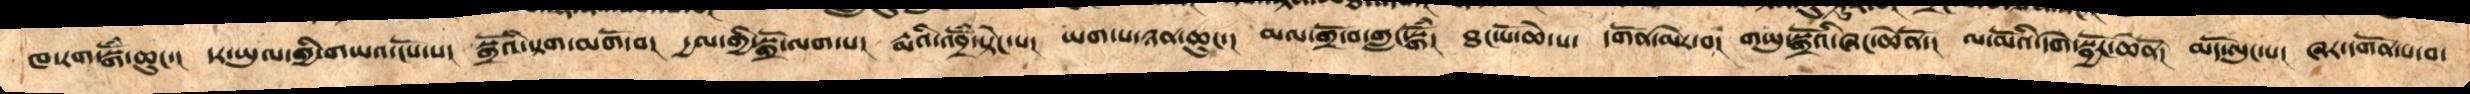ཁ་རག་སྒོཾ་ཆུང་།  དར་ཡུལ་གྱི་གཡའ་ངོས་པ།  སྒྲོའི་སྟག་མགོ་བ།  དྱལ་གྱི་སྒྲོ་ལག་པ།  རྨའི་འབྲོཾ་སྟེང་པ།  ཡག་པ་ཉན་ཆུང་།  མལ་གྲོ་བ་གླང་སྒོཾ། ཐང་པོ་ཆེ་པ་  དགོན་མེར་བ་  གཡུ་སྒྲོའི་ཞང་ཆེེནོ་།  ལ་མོའི་དགེ་སྦྱོང་ཆེནོ།  མདོ་ལུང་པ།  ཞར་དགོན་པ་བ་
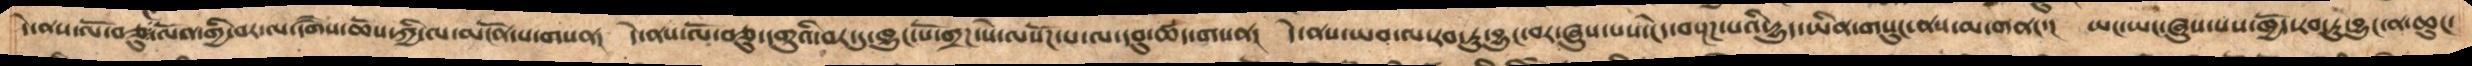དེ་ནས་ལོ་བཅུ་ལོན་གྱི་བར་ལ་དགཻས་ཆོས་ཀྱི་ལ་མངོན་པ་གསན།   དེ་ནས་ལོ་བཅུ་དགུའི་བར་དུ་ཁྱུང་པོ་གྲཌ་སེ་ལསོཌ་པ་ལ་དབུ་ཚད་གསན།  དེ་ནས་ཡབ་ལ་རབ་ཏུ་བྱུང་བར་ཞུས་པས་ངེད་བསྔཌ་པའི་དྱུད་ཡིན་གསུང་ནས་མ་གནང་།   ཡང་ཡང་ཞུས་པས་ཁྱོད་རབ་ཏུ་བྱུང་ན་ཆུང་
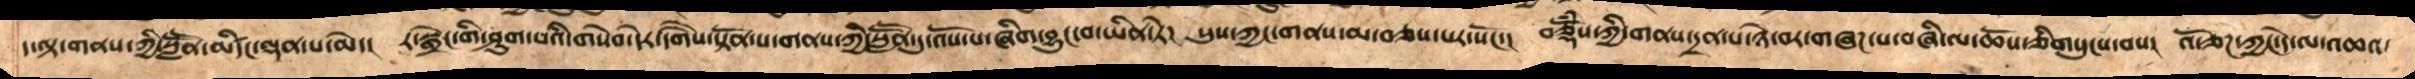ད་ལྟ་གནས་ཀྱི་སླཽན་མིཛདང་ལྡན་པ་མེད།  ར་སྒྲེང་གི་ཤུག་པའི་གསེབ་དེར་དགཻས་སྟོན་པ་གནས་ཀྱི་སླཽན་དུ་འོས་པ་ཞིག་བྱུང་བ་ཡིན་ཏེ།   སུས་ཀྱང་གནས་མ་བཅས་པར་སོང་།  བཅྡོཾས་ཀྱི་གནས་དྲན་པ་ཉེ་བར་གཞཌ་པ་བཞི་ལ་ཆོས་ཅིགསུངས་བས།  འོ་ཅཌ་ཀྱང་དེ་ལ་འཆའ་
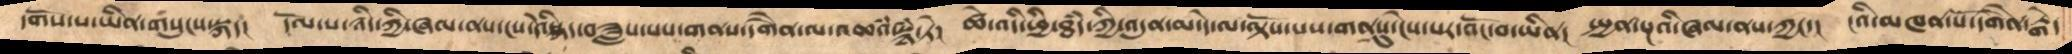དགོས་པ་ཡིན་གསུངས་སྐད།  དོལ་པ་ཉིད་ཀྱི་ཞལ་ནས་ངས་དེ་སྐིད་བཟླས་པས་གནས་དགཻན་ལ་འཆའཾ་སྙཾ་ཏེ།  ཚེ་འདི་ཕྱི་ཐཾད་ཀྱི་འདུན་མ་དེ་ལ་ལྟོས་པས་གནསུ་ངེས་པར་འོང་བ་ཡིན།  སྤྱན་སྔའི་ཞལ་ནས་ཀྱང་།  ངའི་མཁན་པོ་དགཻན་རྒེད
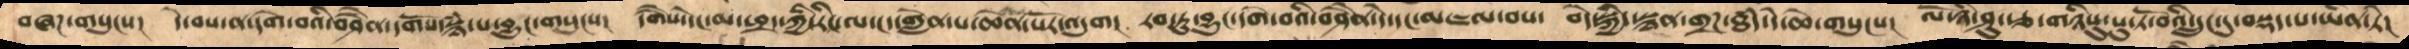བཞཌ་གསུངས།   དེ་བས་ན་དགེ་བའི་བཤཻན་དགོས་སྙཾ་པ་བྱུང་གསུངས།   དགཻས་དེང་མ་ཕྲད་ཀྱི་རིང་ལ་ངད་གླེན་པ་ཆེན་པོར་འདུག།   རབ་ཏུ་བྱུང་དགེ་བའི་བཤཻན་དེ་དང་མཇལ་བས།  བདེ་སྐྱིད་སྙན་གྲཌ་ཐཾད་དེ་ཆེ་གསུངས།  ལོ་ཉི་ཤུ་རྩ་གཉིསུ་པུ་ཏོ་བའི་དྲུང་དུ་བསྡད་པ་ཡིན་ཏེ།
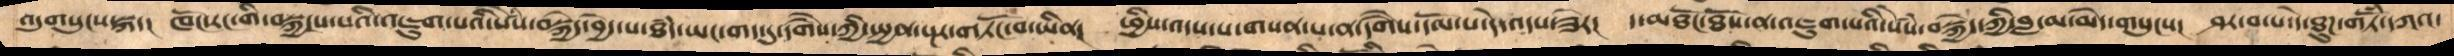འདུགསུངས་སྐད།    ཁོང་རང་གི་བསྐྱངས་པའི་འཇུག་པའི་སེཾས་བསྐྱེད་བྱེད་པ་ཐཾད་ཡང་གད་དུ་དགཻས་ཀྱི་སྤྱན་སྔར་གཏོང་བ་ཡིན།  ཕྱིས་འདས་པ་གསན་པ་ན་དགཻས་དོལ་པ་དེ་འདས་ཟེར།   ད་མཐོང་ཐོས་ན་འཇུག་པའི་སེཾས་བསྐྱེད་ཀྱི་བླ་མ་མེད་གསུངས།   ཤར་བ་པ་དེ་ཐུཌ་གཏོཾ་དཀའ་
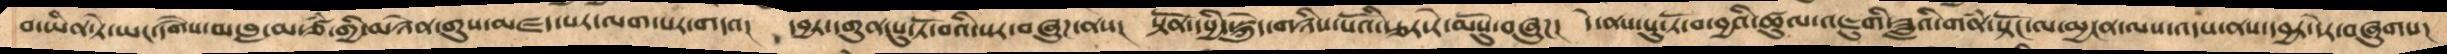བ་ཡིན་ཏེ་ཡང་དགཻས་མ་བླ་མ་ཙཾ་གྱི་མཉེན་གུས་མཛད་པར་ལག་པར་གདའ།   དབྱར་དགུན་པུ་ཏོ་བའི་པར་བཞུཌ་ནས།  སྟོན་དཔྱིད་སྐེུད་གཉིས་པོའི་རྩར་རེ་མོསུ་བཞུཌ།  དེ་ནས་པུ་ཏོ་བ་བྱའི་ཚུལ་འཇུགི་ཟླའི་གནཾ་སྟོང་ལ་མྱངན་ལས་འདས་ནས་དབྱར་དེར་བཞུགས།
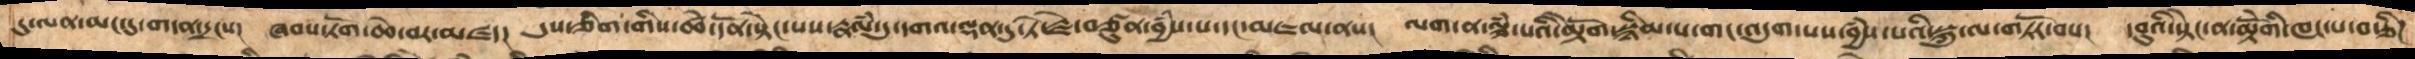དུ་ལན་མང་དུ་གདན་དྲངས།  ཞབས་ཏོག་ཆེ་བར་མཛད།  དུས་གཅིག་གིས་ཚེ་དོན་སྟེང་པས་རྣལཾ་དུ་དགའ་ལྡན་དུ་ཏེ་རྗེ་བཙུན་བྱཾས་པ་དང་མཇལནས།  ལག་ན་ལྕཾ་པའི་མྟེོག་སྙིམ་པ་གང་འདུག་པས་བྱཾས་པའི་སྐུ་ལ་གཏོར་བས།  དབུའི་སྟེང་ན་མྟེོགི་ཁང་པ་བརྩིཌ
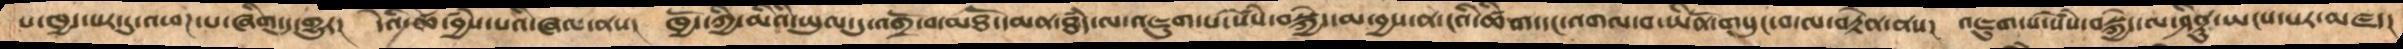པ་ཁྱད་པར་དུ་འཕཌ་པ་ཞིག་ཏུ་གྱུར།  དེའི་ཚེ་བྱཾས་པའི་ཞལ་ནས།  ཁྱོད་ཀྱིས་མིའི་ཡུལ་དུ་འགྲོ་བ་མཐོ་དམན་ཐཾད་ལ་འཇུག་པའི་སེཾས་བསྐྱེད་མ་བྱས་ན་ངའི་ཚིག་དང་འགལ་བ་ཡིནོ་གསུང་བ་ལ་བརྟེན་ནས།  འཇུག་པ་སེཾས་བསྐྱེད་ལ་ཤིནྟུ་ཡངས་པར་མཛད།
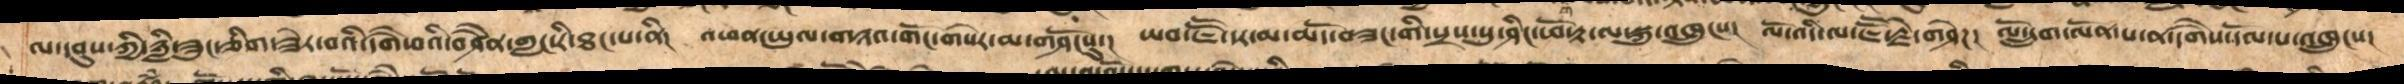ལ་དབུས་ཀྱི་ཉླི་ཟུང་ཅིག་ཟེར་བའི་དགཻ་བའི་བཤཻན་གླང་རི་ཐང་པ་ནི།  འཕན་ཡུལ་གཉའ་གོང་གསེར་མ་གཤོངསུ།  ཡབ་ཇཽ་དར་མ་མདོ་བཟང་གི་སྲས་སུ་ཤིང་ཕོ་རྟ་ལ་སྐུ་འཁྲུངས། ལོ་འདི་ལ་ཇཽ་རྗེ་གཤེཌ།  ལོ་དྲུག་ལོན་པ་ན་དགཻས་དོལ་པ་འཁྲུངས།
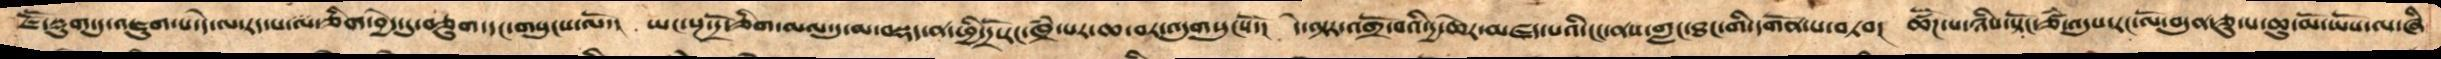ཇཽ་སྡུག་དུའཇུག་པ་དེ་ལ་རད་པ་ལ་ཅིག་བྱེད་དུ་བཅུག་དང་གསུངས་ལོ།  ཡང་སྔ་དྲོ་ཅིག་མལ་དུ་མ་བསྡད་ན་ཕྱི་དྲོ་རང་ཁྲཾ་པར་ཆ་བར་འདུགསུངསོ་།  དེ་ལྟར་འགྲོ་བའི་དྱ་ཆེར་མཛད་པའི་ངང་ནས་གླང་ཐང་གི་དགོན་པ་བཏབ།  ཚོཌ་པ་ཉིས་སྟོང་ཙཾ་འདུས་རང་ལོ་བདུན་ཅུ་པ་ཆུ་མོ་ཡོས་ལ་ཞི
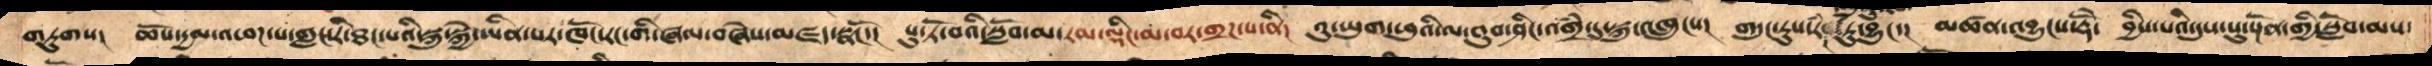གཏུགས།  ཆོས་དྱལ་འཕཌ་པ་གླང་རི་ཐང་པའི་སྐུ་སྐྱེ་ཡིན་པར་ཁོང་རང་གི་ཞལ་བཞེས་མཛད་སྣངོ་།  པུ་ཏོ་བའི་སློབ་མ་རམ་ལྡིང་མ་བར་གྲཌ་པ་ནི།  འུ་ཡུག་ཕུའི་ལ་འུབ་ཤིང་འགྲཾ་་དུ་སྐུ་འཁྲུངས།  གདུང་རུས་རབ་ཏུ་བྱུང་།  མཚན་འབྱུངས་རྡོེ་  བྱིས་པའི་དུས་སུ་སྔོན་གྱི་སློབ་མས་
